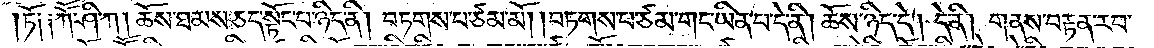ཏོ། །ཀཽ་ཤི་ཀ །ཆོས་ཐམས་ཅད་སྟོང་པ་ཉིད་ནི། བཏགས་པ་ཙམ་མོ། །བཏགས་པ་ཙམ་གང་ཡིན་པ་དེ་ནི། ཆོས་ཉིད་དེ། དེ་ནི། གནས་བརྟན་རབ་
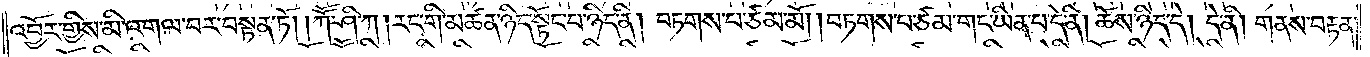འབྱོར་གྱིས་མི་འགལ་བར་བསྟན་ཏོ། །ཀཽ་ཤི་ཀ །རང་གི་མཚན་ཉིད་སྟོང་པ་ཉིད་ནི། བཏགས་པ་ཙམ་མོ། །བཏགས་པ་ཙམ་གང་ཡིན་པ་དེ་ནི། ཆོས་ཉིད་དེ། དེ་ནི། གནས་བརྟན་
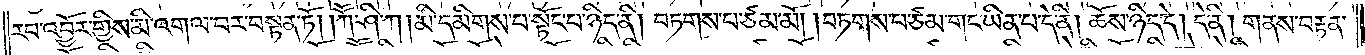རབ་འབྱོར་གྱིས་མི་འགལ་བར་བསྟན་ཏོ། །ཀཽ་ཤི་ཀ །མི་དམིགས་པ་སྟོང་པ་ཉིད་ནི། བཏགས་པ་ཙམ་མོ། །བཏགས་པ་ཙམ་གང་ཡིན་པ་དེ་ནི། ཆོས་ཉིད་དེ། དེ་ནི། གནས་བརྟན་
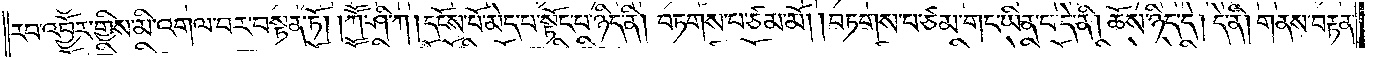རབ་འབྱོར་གྱིས་མི་འགལ་བར་བསྟན་ཏོ། །ཀཽ་ཤི་ཀ །དངོས་པོ་མེད་པ་སྟོང་པ་ཉིད་ནི། བཏགས་པ་ཙམ་མོ། །བཏགས་པ་ཙམ་གང་ཡིན་པ་དེ་ནི། ཆོས་ཉིད་དེ། དེ་ནི། གནས་བརྟན་
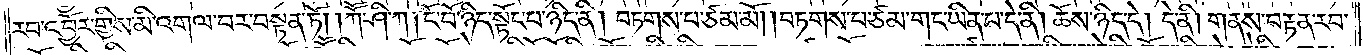རབ་འབྱོར་གྱིས་མི་འགལ་བར་བསྟན་ཏོ། །ཀཽ་ཤི་ཀ །ངོ་བོ་ཉིད་སྟོང་པ་ཉིད་ནི། བཏགས་པ་ཙམ་མོ། །བཏགས་པ་ཙམ་གང་ཡིན་པ་དེ་ནི། ཆོས་ཉིད་དེ། དེ་ནི། གནས་བརྟན་རབ་
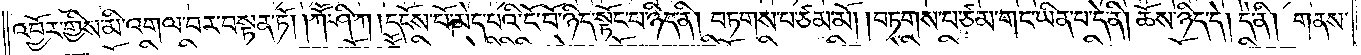འབྱོར་གྱིས་མི་འགལ་བར་བསྟན་ཏོ། །ཀཽ་ཤི་ཀ །དངོས་པོ་མེད་པའི་ངོ་བོ་ཉིད་སྟོང་པ་ཉིད་ནི། བཏགས་པ་ཙམ་མོ། །བཏགས་པ་ཙམ་གང་ཡིན་པ་དེ་ནི། ཆོས་ཉིད་དེ། དེ་ནི། གནས་
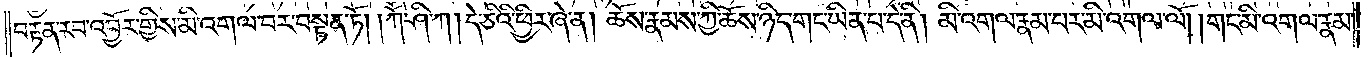བརྟན་རབ་འབྱོར་གྱིས་མི་འགལ་བར་བསྟན་ཏོ། །ཀཽ་ཤི་ཀ །དེ་ཅིའི་ཕྱིར་ཞེ་ན། ཆོས་རྣམས་ཀྱི་ཆོས་ཉིད་གང་ཡིན་པ་དེ་ནི། མི་འགལ་རྣམ་པར་མི་འགལ་ལོ། །གང་མི་འགལ་རྣམ་
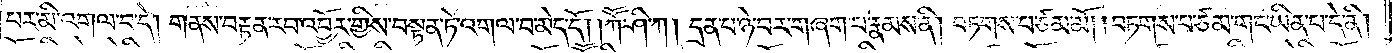པར་མི་འགལ་བ་དེ། གནས་བརྟན་རབ་འབྱོར་གྱིས་བསྟན་ཏེ་འགལ་བ་མེད་དོ། །ཀཽ་ཤི་ཀ །དྲན་པ་ཉེ་བར་བཞག་པ་རྣམས་ནི། བཏགས་པ་ཙམ་མོ། །བཏགས་པ་ཙམ་གང་ཡིན་པ་དེ་ནི།
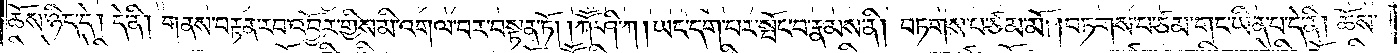ཆོས་ཉིད་དེ། དེ་ནི། གནས་བརྟན་རབ་འབྱོར་གྱིས་མི་འགལ་བར་བསྟན་ཏོ། །ཀཽ་ཤི་ཀ །ཡང་དག་པར་སྤོང་བ་རྣམས་ནི། བཏགས་པ་ཙམ་མོ། །བཏགས་པ་ཙམ་གང་ཡིན་པ་དེ་ནི། ཆོས་
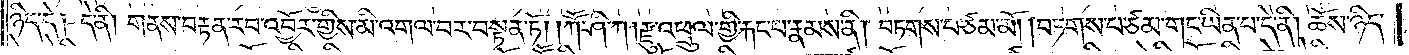ཉིད་དེ། དེ་ནི། གནས་བརྟན་རབ་འབྱོར་གྱིས་མི་འགལ་བར་བསྟན་ཏོ། །ཀཽ་ཤི་ཀ །རྫུ་འཕྲུལ་གྱི་རྐང་པ་རྣམས་ནི། བཏགས་པ་ཙམ་མོ། །བཏགས་པ་ཙམ་གང་ཡིན་པ་དེ་ནི། ཆོས་ཉིད་
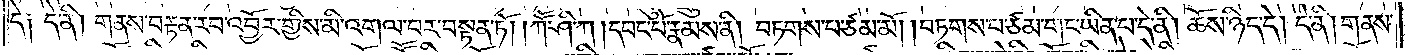དེ༑ དེ་ནི། གནས་བརྟན་རབ་འབྱོར་གྱིས་མི་འགལ་བར་བསྟན་ཏོ། །ཀཽ་ཤི་ཀ །དབང་པོ་རྣམས་ནི། བཏགས་པ་ཙམ་མོ།བཏགས་པ་ཙམ་གང་ཡིན་པ་དེ་ནི། ཆོས་ཉིད་དེ། དེ་ནི། གནས་
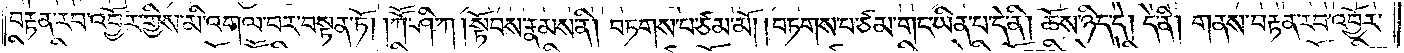བརྟན་རབ་འབྱོར་གྱིས་མི་འགལ་བར་བསྟན་ཏོ། །ཀཽ་ཤི་ཀ །སྟོབས་རྣམས་ནི། བཏགས་པ་ཙམ་མོ། །བཏགས་པ་ཙམ་གང་ཡིན་པ་དེ་ནི། ཆོས་ཉིད་དེ། དེ་ནི། གནས་བརྟན་རབ་འབྱོར་
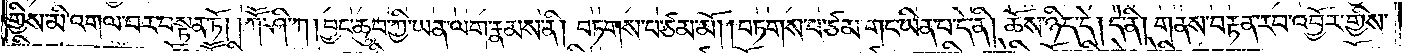གྱིས་མི་འགལ་བར་བསྟན་ཏོ། །ཀཽ་ཤི་ཀ །བྱང་ཆུབ་ཀྱི་ཡན་ལག་རྣམས་ནི་བཏགས་པ་ཙམ་མོ། །བཏགས་པ་ཙམ་གང་ཡིན་པ་དེ་ནི། ཆོས་ཉིད་དེ། དེ་ནི། གནས་བརྟན་རབ་འབྱོར་གྱིས་
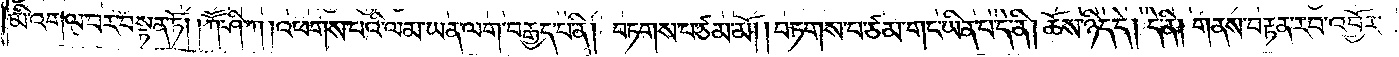མི་འགལ་བར་བསྟན་ཏོ། །ཀཽ་ཤི་ཀ །འཕགས་པའི་ལམ་ཡན་ལག་བརྒྱད་པ་ནི། བཏགས་པ་ཙམ་མོ། །བཏགས་པ་ཙམ་གང་ཡིན་པ་དེ་ནི། ཆོས་ཉིད་དེ། དེ་ནི། གནས་བརྟན་རབ་འབྱོར་
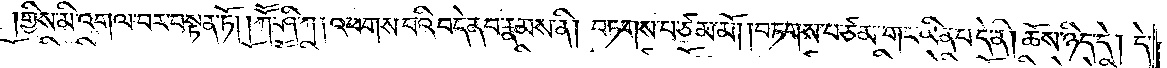གྱིས་མི་འགལ་བར་བསྟན་ཏོ། །ཀཽ་ཤི་ཀ །འཕགས་པའི་བདེན་པ་རྣམས་ནི། བཏགས་པ་ཙམ་མོ། །བཏགས་པ་ཙམ་གང་ཡིན་པ་དེ་ནི། ཆོས་ཉིད་དེ། དེ་
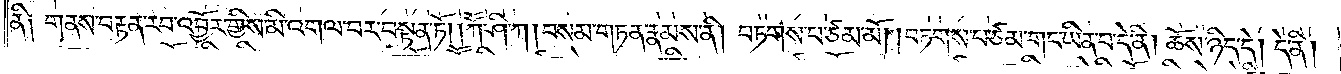ནི༑ གནས་བརྟན་རབ་འབྱོར་གྱིས་མི་འགལ་བར་བསྟན་ཏོ། །ཀཽ་ཤི་ཀ །བསམ་གཏན་རྣམས་ནི། བཏགས་པ་ཙམ་མོ། །བཏགས་པ་ཙམ་གང་ཡིན་པ་དེ་ནི། ཆོས་ཉིད་དེ། དེ་ནི།
